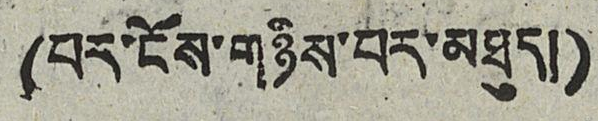(པར་ངོས་གཉིས་པར་མཐུད།)
